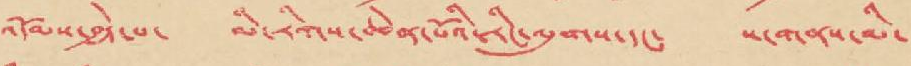འདོམས་བྱེད་པ་ མི་རིགས་ཆེན་པོའི་རིང་ལུགས་དང་ ས་གནས་མི་
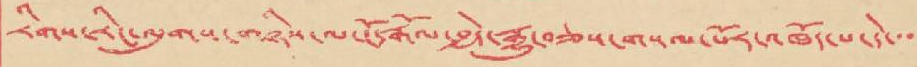རིགས་རིང་ལུགས་གཉིས་ལ་ངོ་རྒོལ་བྱེད་རྒྱུ་བཅས་གསལ་པོར་འཁོད་པ་དེ་་་
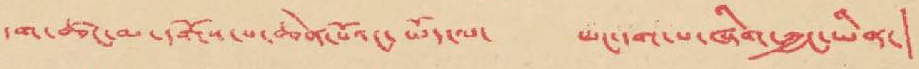དག་ཚང་མ་དགོས་པ་ཆེན་པོའང་ཡོད་ལ་ ཡང་དག་པ་ཞིག་ཀྱང་ཡིན།
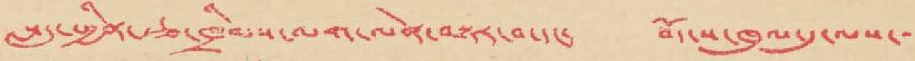སླད་ཕྱིན་ཙ་ཁྲིམས་ལག་ལེན་བསྟར་བ་དང་ བོད་ས་ཁུལ་དུ་ལས་་
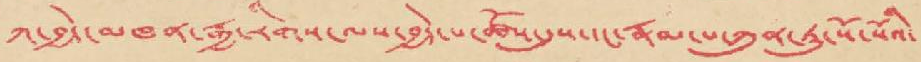ཀ་བྱེད་མཁན་རྒྱ་རིགས་ལས་བྱེད་པ་ཚོས་དུས་དང་རྣམ་པ་ཀུན་ཏུ་སོ་སོའི་
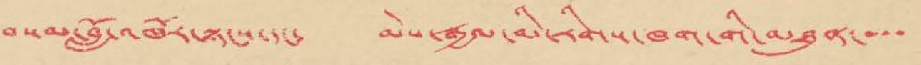བསམ་བློ་འཁོར་སྟངས་དང་ མེས་རྒྱལ་མི་རིགས་ཁག་གི་མཐུན་་་་
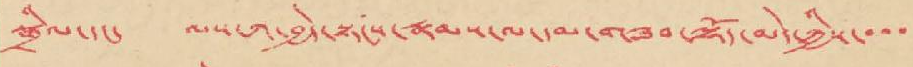སྒྲིལ་དང་ ལས་ཀ་བྱེད་སྟངས་རྣམས་ལ་དམ་གཟབ་ལྷོད་མེད་ཀྱིས་་་་
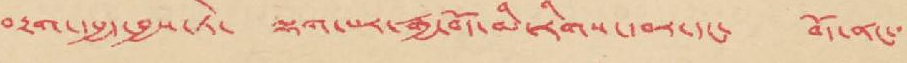བརྟག་དཔྱད་བྱས་ཏེ་ ལྷག་པར་རྒྱ་གར་བོད་མི་རིགས་བར་དང་ བོད་ནང་་
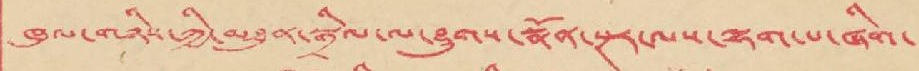ཁུལ་གཉིས་ཀྱི་མཐུན་སྒྲིལ་ལ་ཤུགས་སྣོན་སྔར་ལས་ལྷག་པ་ཞིག་
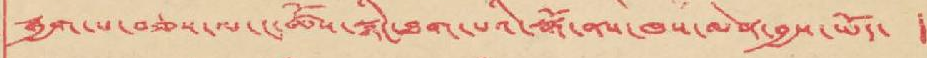རྒྱག་པ་བཅས་ལ་ང་ཚོས་སྙིང་ཐག་པའི་སྒོ་ནས་ཁས་ལེན་བྱས་ཡོད་ །
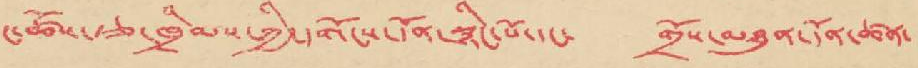ང་ཚོས་རྩ་ཁྲིམས་ཀྱི་དགོངས་དོན་སྙིང་པོ་དང་ གྲོས་མཐུན་དོན་ཚན་
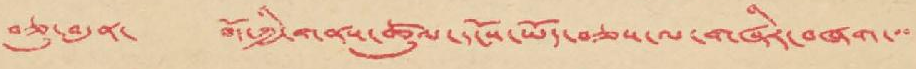བཅུ་བདུན་ བོད་ཀྱི་གནས་ཚུལ་དངོས་ཡོད་བཅས་ལ་གཞིར་བཞག་་་
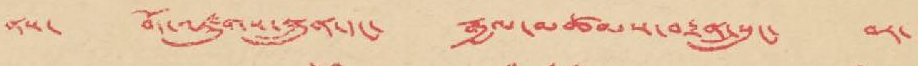ནས་ བོད་འཛུགས་སྐྲུན་དང་ རྒྱལ་མཚམས་བརྟན་སྲུང་ བར་
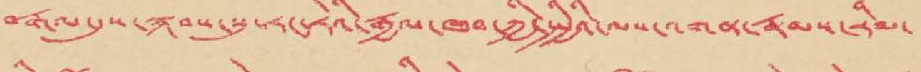བརྒལ་དུས་སྐབས་སུ་རང་རེའི་རྒྱལ་ཁབ་ཀྱི་སྤྱིའི་ལས་འགན་རྣམས་རིམ་
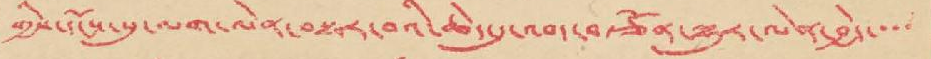གྱིས་དངོས་སུ་ལག་ལེན་བསྟར་བའི་ཆེད་དུ་འབད་བརྩོན་ལྷུར་ལེན་བྱེད་་་་
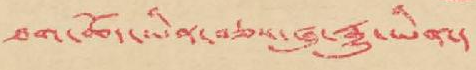ཐག་ཆོད་ཡིན་བཅས་ཞུ་རྒྱུ་ཡིན།
